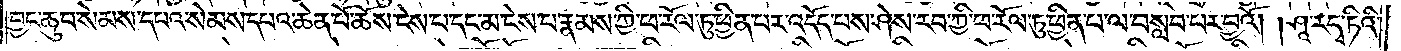བྱང་ཆུབ་སེམས་དཔའ་སེམས་དཔའ་ཆེན་པོ་ཆོས་ངེས་པ་དང་མ་ངེས་པ་རྣམས་ཀྱི་ཕ་རོལ་ཏུ་ཕྱིན་པར་འདོད་པས་ཤེས་རབ་ཀྱི་ཕ་རོལ་ཏུ་ཕྱིན་པ་ལ་བསླབ་པར་བྱའོ། །ཤཱ་ར་དྭ་ཏིའི་
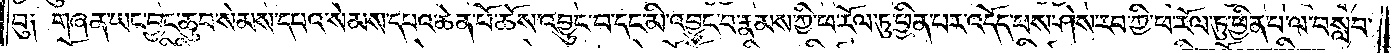བུ༑ གཞན་ཡང་བྱང་ཆུབ་སེམས་དཔའ་སེམས་དཔའ་ཆེན་པོ་ཆོས་འབྱུང་བ་དང་མི་འབྱུང་བ་རྣམས་ཀྱི་ཕ་རོལ་ཏུ་ཕྱིན་པར་འདོད་པས་ཤེས་རབ་ཀྱི་ཕ་རོལ་ཏུ་ཕྱིན་པ་ལ་བསླབ་
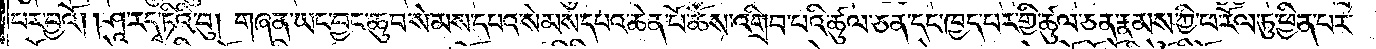པར་བྱའོ། །ཤཱ་ར་དྭ་ཏིའི་བུ། གཞན་ཡང་བྱང་ཆུབ་སེམས་དཔའ་སེམས་དཔའ་ཆེན་པོ་ཆོས་འགྲིབ་པའི་ཚུལ་ཅན་དང་ཁྱད་པར་གྱི་ཚུལ་ཅན་རྣམས་ཀྱི་ཕ་རོལ་ཏུ་ཕྱིན་པར་
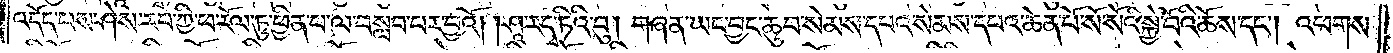འདོད་པས་ཤེས་རབ་ཀྱི་ཕ་རོལ་ཏུ་ཕྱིན་པ་ལ་བསླབ་པར་བྱའོ། །ཤཱ་ར་དྭ་ཏིའི་བུ། གཞན་ཡང་བྱང་ཆུབ་སེམས་དཔའ་སེམས་དཔའ་ཆེན་པོ་སོ་སོའི་སྐྱེ་བོའི་ཆོས་དང༌། འཕགས་
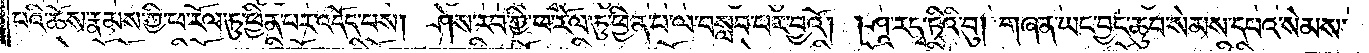པའི་ཆོས་རྣམས་ཀྱི་ཕ་རོལ་ཏུ་ཕྱིན་པར་འདོད་པས། ཤེས་རབ་ཀྱི་ཕ་རོལ་ཏུ་ཕྱིན་པ་ལ་བསླབ་པར་བྱའོ། །ཤཱ་ར་དྭ་ཏིའི་བུ། གཞན་ཡང་བྱང་ཆུབ་སེམས་དཔའ་སེམས་
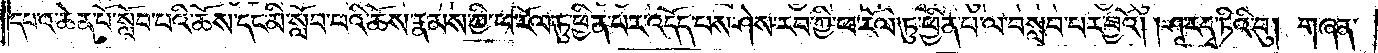དཔའ་ཆེན་པོ་སློབ་པའི་ཆོས་དང་མི་སློབ་པའི་ཆོས་རྣམས་ཀྱི་ཕ་རོལ་ཏུ་ཕྱིན་པར་འདོད་པས་ཤེས་རབ་ཀྱི་ཕ་རོལ་ཏུ་ཕྱིན་པ་ལ་བསླབ་པར་བྱའོ། །ཤཱ་ར་དྭ་ཏིའི་བུ། གཞན་
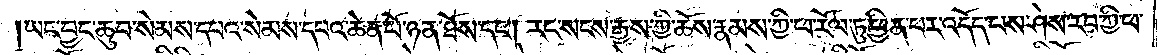ཡང་བྱང་ཆུབ་སེམས་དཔའ་སེམས་དཔའ་ཆེན་པོ་ཉན་ཐོས་དང༌། རང་སངས་རྒྱས་ཀྱི་ཆོས་རྣམས་ཀྱི་ཕ་རོལ་ཏུ་ཕྱིན་པར་འདོད་པས་ཤེས་རབ་ཀྱི་ཕ་
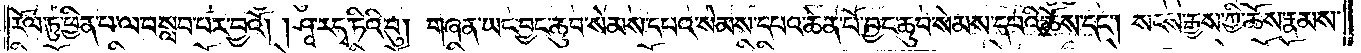རོལ་ཏུ་ཕྱིན་པ་ལ་བསླབ་པར་བྱའོ། །ཤཱ་ར་དྭ་ཏིའི་བུ། གཞན་ཡང་བྱང་ཆུབ་སེམས་དཔའ་སེམས་དཔའ་ཆེན་པོ་བྱང་ཆུབ་སེམས་དཔའི་ཆོས་དང༌། སངས་རྒྱས་ཀྱི་ཆོས་རྣམས་
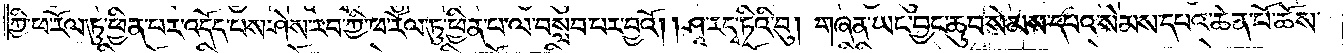ཀྱི་ཕ་རོལ་ཏུ་ཕྱིན་པར་འདོད་པས་ཤེས་རབ་ཀྱི་ཕ་རོལ་ཏུ་ཕྱིན་པ་ལ་བསླབ་པར་བྱའོ། །ཤཱ་ར་དྭ་ཏིའི་བུ། གཞན་ཡང་བྱང་ཆུབ་སེམས་དཔའ་སེམས་དཔའ་ཆེན་པོ་ཆོས་
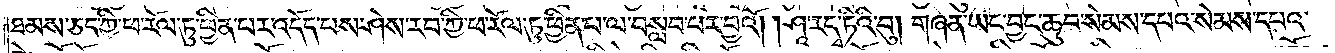ཐམས་ཅད་ཀྱི་ཕ་རོལ་ཏུ་ཕྱིན་པར་འདོད་པས་ཤེས་རབ་ཀྱི་ཕ་རོལ་ཏུ་ཕྱིན་པ་ལ་བསླབ་པར་བྱའོ། །ཤཱ་ར་དྭ་ཏིའི་བུ། གཞན་ཡང་བྱང་ཆུབ་སེམས་དཔའ་སེམས་དཔའ་
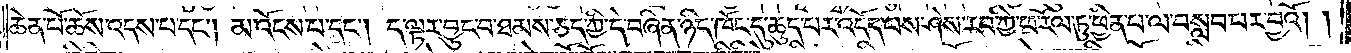ཆེན་པོ་ཆོས་འདས་པ་དང༌། མ་འོངས་པ་དང༌། ད་ལྟར་བྱུང་བ་ཐམས་ཅད་ཀྱི་དེ་བཞིན་ཉིད་ཁོང་དུ་ཆུད་པར་འདོད་པས་ཤེས་རབ་ཀྱི་ཕ་རོལ་ཏུ་ཕྱིན་པ་ལ་བསླབ་པར་བྱའོ། །
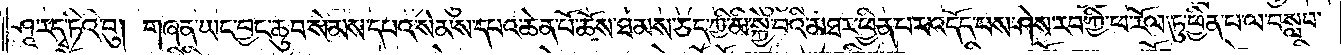ཤཱ་ར་དྭ་ཏིའི་བུ། གཞན་ཡང་བྱང་ཆུབ་སེམས་དཔའ་སེམས་དཔའ་ཆེན་པོ་ཆོས་ཐམས་ཅད་ཀྱི་མི་སྐྱེ་བའི་མཐར་ཕྱིན་པར་འདོད་པས་ཤེས་རབ་ཀྱི་ཕ་རོལ་ཏུ་ཕྱིན་པ་ལ་བསླབ་
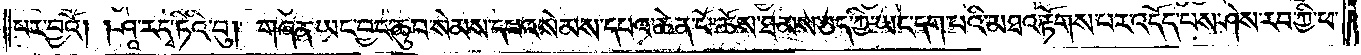པར་བྱའོ། །ཤཱ་ར་དྭ་ཏིའི་བུ། གཞན་ཡང་བྱང་ཆུབ་སེམས་དཔའ་སེམས་དཔའ་ཆེན་པོ་ཆོས་ཐམས་ཅད་ཀྱི་ཡང་དག་པའི་མཐའ་རྟོགས་པར་འདོད་པས་ཤེས་རབ་ཀྱི་ཕ་
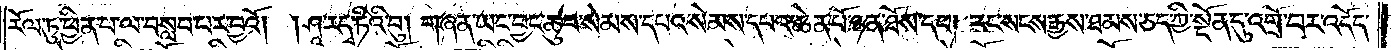རོལ་ཏུ་ཕྱིན་པ་ལ་བསླབ་པར་བྱའོ། །ཤཱ་ར་དྭ་ཏིའི་བུ། གཞན་ཡང་བྱང་ཆུབ་སེམས་དཔའ་སེམས་དཔའ་ཆེན་པོ་ཉན་ཐོས་དང༌། རང་སངས་རྒྱས་ཐམས་ཅད་ཀྱི་སྔོན་དུ་འགྲོ་བར་འདོད་
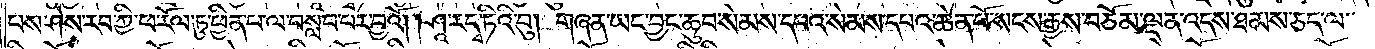པས་ཤེས་རབ་ཀྱི་ཕ་རོལ་ཏུ་ཕྱིན་པ་ལ་བསླབ་པར་བྱའོ། །ཤཱ་ར་དྭ་ཏིའི་བུ། གཞན་ཡང་བྱང་ཆུབ་སེམས་དཔའ་སེམས་དཔའ་ཆེན་པོ་སངས་རྒྱས་བཅོམ་ལྡན་འདས་ཐམས་ཅད་ལ་
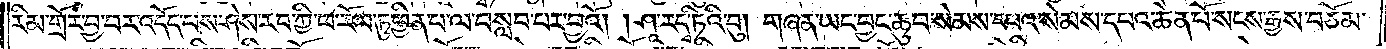རིམ་གྲོར་བྱ་བར་འདོད་པས་ཤེས་རབ་ཀྱི་ཕ་རོལ་ཏུ་ཕྱིན་པ་ལ་བསླབ་པར་བྱའོ། །ཤཱ་ར་དྭ་ཏིའི་བུ། གཞན་ཡང་བྱང་ཆུབ་སེམས་དཔའ་སེམས་དཔའ་ཆེན་པོ་སངས་རྒྱས་བཅོམ་
